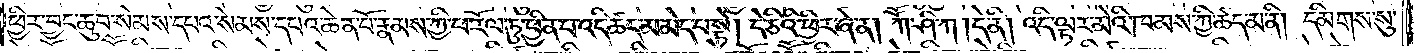ཕྱིར་བྱང་ཆུབ་སེམས་དཔའ་སེམས་དཔའ་ཆེན་པོ་རྣམས་ཀྱི་ཕ་རོལ་ཏུ་ཕྱིན་པ་འདི་ཚད་མ་མེད་པ་སྟེ། དེ་ཅིའི་ཕྱིར་ཞེ་ན། ཀཽ་ཤི་ཀ །དེ་ནི། འདི་ལྟར་མེའི་ཁམས་ཀྱི་ཚད་མ་ནི། དམིགས་སུ་
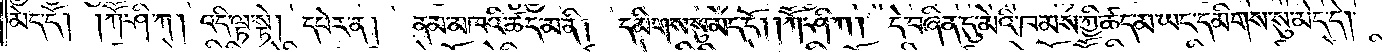མེད་དོ། །ཀཽ་ཤི་ཀ །འདི་ལྟ་སྟེ། དཔེར་ན། ནམ་མཁའི་ཚད་མ་ནི། དམིགས་སུ་མེད་དོ། །ཀཽ་ཤི་ཀ །དེ་བཞིན་དུ་མེའི་ཁམས་ཀྱི་ཚད་མ་ཡང་དམིགས་སུ་མེད་དེ།
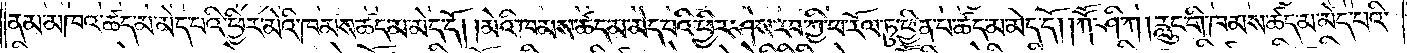ནམ་མཁའ་ཚད་མ་མེད་པའི་ཕྱིར་མེའི་ཁམས་ཚད་མ་མེད་དོ། །མེའི་ཁམས་ཚད་མེད་པའི་ཕྱིར་ཤེས་རབ་ཀྱི་ཕ་རོལ་ཏུ་ཕྱིན་པ་ཚད་མེད་དོ། །ཀཽ་ཤི་ཀ །རླུང་གི་ཁམས་ཚད་མ་མེད་པའི་
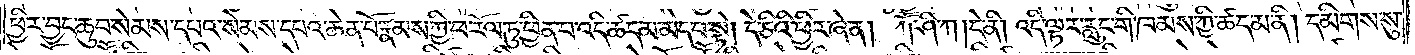ཕྱིར་བྱང་ཆུབ་སེམས་དཔའ་སེམས་དཔའ་ཆེན་པོ་རྣམས་ཀྱི་ཕ་རོལ་ཏུ་ཕྱིན་པ་འདི་ཚད་མ་མེད་པ་སྟེ། དེ་ཅིའི་ཕྱིར་ཞེ་ན། ཀཽ་ཤི་ཀ །དེ་ནི། འདི་ལྟར་རླུང་གི་ཁམས་ཀྱི་ཚད་མ་ནི། དམིགས་སུ་
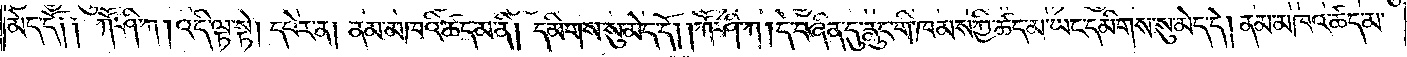མེད་དོ། །ཀཽ་ཤི་ཀ །འདི་ལྟ་སྟེ། དཔེར་ན། ནམ་མཁའི་ཚད་མ་ནི། དམིགས་སུ་མེད་དོ། །ཀཽ་ཤི་ཀ །དེ་བཞིན་དུ་རླུང་གི་ཁམས་ཀྱི་ཚད་མ་ཡང་དམིགས་སུ་མེད་དེ། ནམ་མཁའ་ཚད་མ་
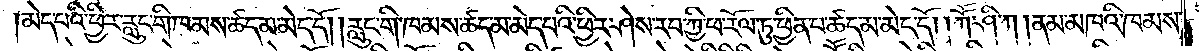མེད་པའི་ཕྱིར་རླུང་གི་ཁམས་ཚད་མ་མེད་དོ། །རླུང་གི་ཁམས་ཚད་མ་མེད་པའི་ཕྱིར་ཤེས་རབ་ཀྱི་ཕ་རོལ་ཏུ་ཕྱིན་པ་ཚད་མ་མེད་དོ། །ཀཽ་ཤི་ཀ །ནམ་མཁའི་ཁམས་
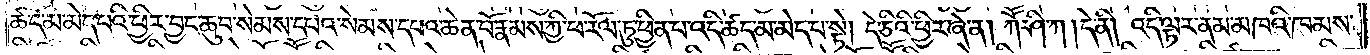ཚད་མ་མེད་པའི་ཕྱིར་བྱང་ཆུབ་སེམས་དཔའ་སེམས་དཔའ་ཆེན་པོ་རྣམས་ཀྱི་ཕ་རོལ་ཏུ་ཕྱིན་པ་འདི་ཚད་མ་མེད་པ་སྟེ། དེ་ཅིའི་ཕྱིར་ཞེ་ན། ཀཽ་ཤི་ཀ །དེ་ནི། འདི་ལྟར་ནམ་མཁའི་ཁམས་
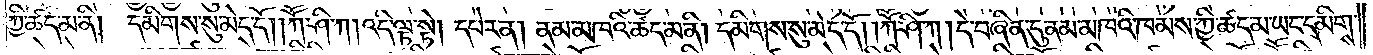ཀྱི་ཚད་མ་ནི་དམིགས་སུ་མེད་དོ། །ཀཽ་ཤི་ཀ །འདི་ལྟ་སྟེ། དཔེར་ན། ནམ་མཁའི་ཚད་མ་ནི། དམིགས་སུ་མེད་དོ། །ཀཽ་ཤི་ཀ །དེ་བཞིན་དུ་ནམ་མཁའི་ཁམས་ཀྱི་ཚད་མ་ཡང་དམིགས་
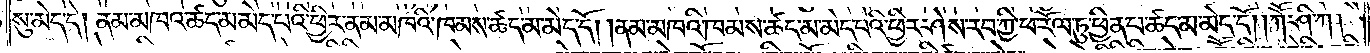སུ་མེད་དེ། ནམ་མཁའ་ཚད་མ་མེད་པའི་ཕྱིར་ནམ་མཁའི་ཁམས་ཚད་མ་མེད་དོ། །ནམ་མཁའི་ཁམས་ཚད་མ་མེད་པའི་ཕྱིར་ཤེས་རབ་ཀྱི་ཕ་རོལ་ཏུ་ཕྱིན་པ་ཚད་མ་མེད་དོ། །ཀཽ་ཤི་ཀ།
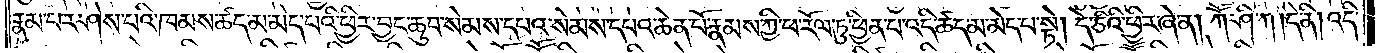རྣམ་པར་ཤེས་པའི་ཁམས་ཚད་མ་མེད་པའི་ཕྱིར་བྱང་ཆུབ་སེམས་དཔའ་སེམས་དཔའ་ཆེན་པོ་རྣམས་ཀྱི་ཕ་རོལ་ཏུ་ཕྱིན་པ་འདི་ཚད་མ་མེད་པ་སྟེ། དེ་ཅིའི་ཕྱིར་ཞེ་ན། ཀཽ་ཤི་ཀ །དེ་ནི། འདི་
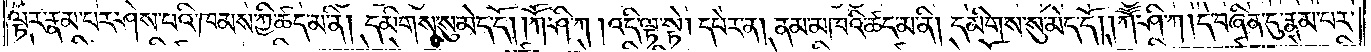ལྟར་རྣམ་པར་ཤེས་པའི་ཁམས་ཀྱི་ཚད་མ་ནི། དམིགས་སུ་མེད་དོ། །ཀཽ་ཤི་ཀ །འདི་ལྟ་སྟེ། དཔེར་ན། ནམ་མཁའི་ཚད་མ་ནི། དམིགས་སུ་མེད་དོ། །ཀཽ་ཤི་ཀ །དེ་བཞིན་དུ་རྣམ་པར་
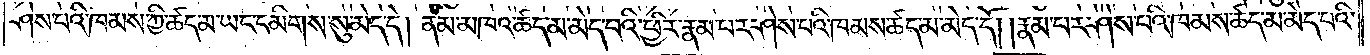ཤེས་པའི་ཁམས་ཀྱི་ཚད་མ་ཡང་དམིགས་སུ་མེད་དེ། ནམ་མཁའ་ཚད་མ་མེད་པའི་ཕྱིར་རྣམ་པར་ཤེས་པའི་ཁམས་ཚད་མ་མེད་དོ། །རྣམ་པར་ཤེས་པའི་ཁམས་ཚད་མ་མེད་པའི་
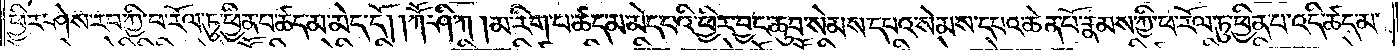ཕྱིར་ཤེས་རབ་ཀྱི་ཕ་རོལ་ཏུ་ཕྱིན་པ་ཚད་མ་མེད་དོ། ། ཀཽ་ཤི་ཀ །མ་རིག་པ་ཚད་མ་མེད་པའི་ཕྱིར་བྱང་ཆུབ་སེམས་དཔའ་སེམས་དཔའ་ཆེན་པོ་རྣམས་ཀྱི་ཕ་རོལ་ཏུ་ཕྱིན་པ་འདི་ཚད་མ་
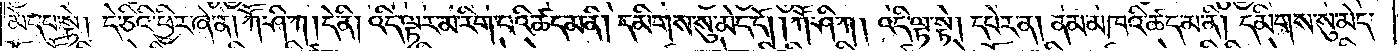མེད་པ་སྟེ། དེ་ཅིའི་ཕྱིར་ཞེ་ན། ཀཽ་ཤི་ཀ །དེ་ནི། འདི་ལྟར་མ་རིག་པའི་ཚད་མ་ནི། དམིགས་སུ་མེད་དོ། །ཀཽ་ཤི་ཀ །འདི་ལྟ་སྟེ། དཔེར་ན། ནམ་མཁའི་ཚད་མ་ནི། དམིགས་སུ་མེད་
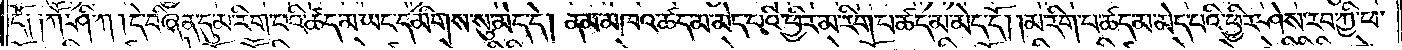དོ༑ ༑ཀཽ་ཤི་ཀ །དེ་བཞིན་དུ་མ་རིག་པའི་ཚད་མ་ཡང་དམིགས་སུ་མེད་དེ། ནམ་མཁའ་ཚད་མ་མེད་པའི་ཕྱིར་མ་རིག་པ་ཚད་མ་མེད་དོ། །མ་རིག་པ་ཚད་མ་མེད་པའི་ཕྱིར་ཤེས་རབ་ཀྱི་ཕ་
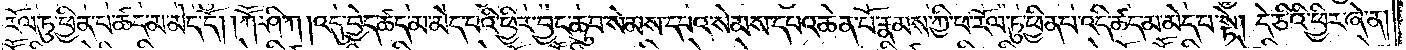རོལ་ཏུ་ཕྱིན་པ་ཚད་མ་མེད་དོ། །ཀཽ་ཤི་ཀ །འདུ་བྱེད་ཚད་མ་མེད་པའི་ཕྱིར་བྱང་ཆུབ་སེམས་དཔའ་སེམས་དཔའ་ཆེན་པོ་རྣམས་ཀྱི་ཕ་རོལ་ཏུ་ཕྱིན་པ་འདི་ཚད་མ་མེད་པ་སྟེ། དེ་ཅིའི་ཕྱིར་ཞེ་ན།
